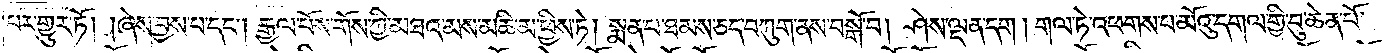པར་གྱུར་ཏོ། །ཞེས་བྱས་པ་དང༌། རྒྱལ་པོས་གོས་ཀྱི་མཐའ་མས་མཆི་མ་ཕྱིས་ཏེ། སྨན་པ་ཐམས་ཅད་བཀུག་ནས་བསྒོ་བ། ཤེས་ལྡན་དག །གལ་ཏེ་འཕགས་པ་མོའུ་དགལ་གྱི་བུ་ཆེན་པོ་
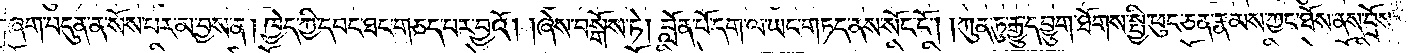ཞག་བདུན་ན་སོས་པར་མ་བྱས་ན། ཁྱེད་ཀྱི་དབང་ཐང་གཅད་པར་བྱའོ། །ཞེས་བསྒོས་ཏེ། བློན་པོ་དག་ལ་ཡང་གཏད་ནས་སོང་ངོ༌། །ཀུན་ཏུ་རྒྱུ་དབྱུག་ཐོགས་སྤྱི་ཕུང་ཅན་རྣམས་ཀྱང་ཐོས་ནས་བྲོས་
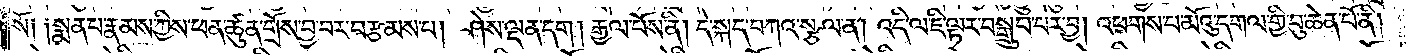སོ། །སྨན་པ་རྣམས་ཀྱིས་ཕན་ཚུན་གྲོས་བྱ་བར་བརྩམས་པ། ཤེས་ལྡན་དག། རྒྱལ་པོས་ནི། དེ་སྐད་བཀའ་སྩལ་ན། འདི་ལ་ཇི་ལྟར་བསྒྲུབ་པར་བྱ། འཕགས་པ་མོའུ་དགལ་གྱི་བུ་ཆེན་པོ་ནི།
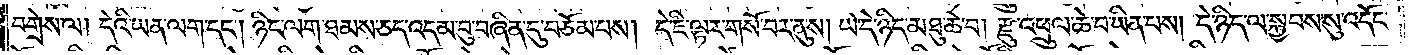བགྲེས་ལ། དེའི་ཡན་ལག་དང༌། ཉིང་ལག་ཐམས་ཅད་འདམ་བུ་བཞིན་དུ་བཅོམ་པས། དེ་ཇི་ལྟར་གསོ་བར་ནུས། ཡེ་དེ་ཉིད་མཐུ་ཆེ་བ། རྫུ་འཕྲུལ་ཆེ་བ་ཡིན་པས། དེ་ཉིད་ལ་སྐྱབས་སུ་འདོང་
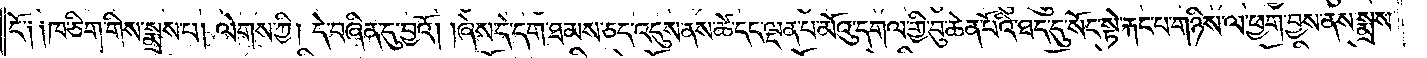ངོ༌། །ཁ་ཅིག་གིས་སྨྲས་པ། ལེགས་ཀྱི། དེ་བཞིན་དུ་བྱའོ། །ཞེས་དེ་དག་ཐམས་ཅད་འདུས་ནས་ཚེ་དང་ལྡན་པ་མོའུ་དགལ་གྱི་བུ་ཆེན་པོའི་ཐད་དུ་སོང་སྟེ་རྐང་པ་གཉིས་ལ་ཕྱག་བྱས་ནས་སྨྲས་
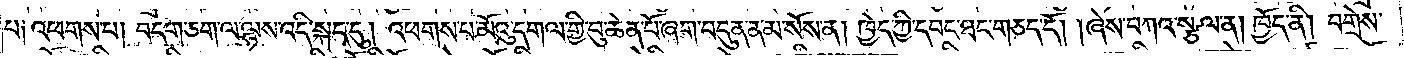པ། འཕགས་པ། བདག་ཅག་ལ་ལྷས་འདི་སྐད་དུ། འཕགས་པ་མོའུ་དགལ་གྱི་བུ་ཆེན་པོ་ཞག་བདུན་ན་མ་སོས་ན། ཁྱེད་ཀྱི་དབང་ཐང་གཅད་དོ། །ཞེས་བཀའ་སྩལ་ན། ཁྱོད་ནི། བགྲེས་
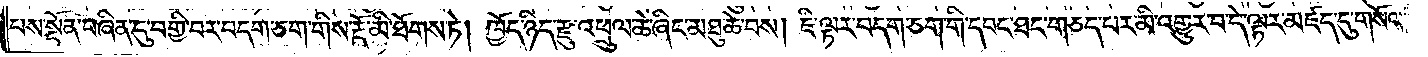པས་སྔོན་བཞིན་དུ་བགྱི་བར་བདག་ཅག་གིས་རྡོ་མི་ཐོགས་ཏེ། ཁྱོད་ཉིད་རྫུ་འཕྲུལ་ཆེ་ཞིང་མཐུ་ཆེ་བས། ཇི་ལྟར་བདག་ཅག་གི་དབང་ཐང་གཅད་པར་མི་འགྱུར་བ་དེ་ལྟར་མཛད་དུ་གསོལ།
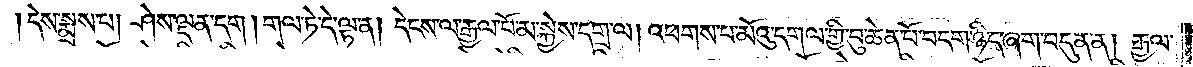དེས་སྨྲས་པ། ཤེས་ལྡན་དག །གལ་ཏེ་དེ་ལྟ་ན། དེངས་ལ་རྒྱལ་པོ་མ་སྐྱེས་དགྲ་ལ། འཕགས་པ་མོའུ་དགལ་གྱི་བུ་ཆེན་པོ་བདག་ཉིད་ཞག་བདུན་ན། རྒྱལ་
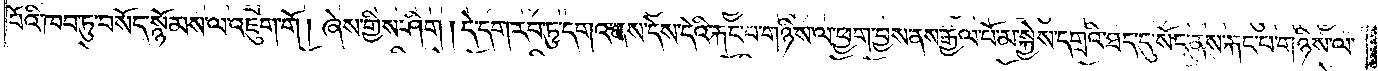པོའི་ཁབ་ཏུ་བསོད་སྙོམས་ལ་འཇུག་གོ །ཞེས་གྱིས་ཤིག །དེ་དག་རབ་ཏུ་དགའ་ནས་དེས་དེའི་རྐང་པ་གཉིས་ལ་ཕྱག་བྱས་ནས་རྒྱལ་པོ་མ་སྐྱེས་དགྲའི་ཐད་དུ་སོང་ནས་རྐང་པ་གཉིས་ལ་
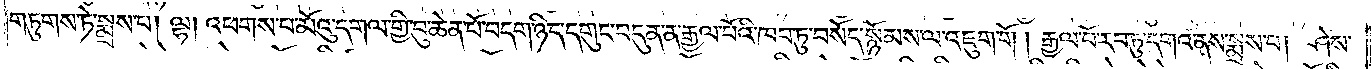གཏུགས་ཏེ་སྨྲས་པ། ལྷ། འཕགས་པ་མོའུ་དགལ་གྱི་བུ་ཆེན་པོ་བདག་ཉིད་དགུང་བདུན་ན་རྒྱལ་པོའི་ཁབ་ཏུ་བསོད་སྙོམས་ལ་འཇུག་གོ །རྒྱལ་པོ་རབ་ཏུ་དགའ་ནས་སྨྲས་པ། ཤེས་
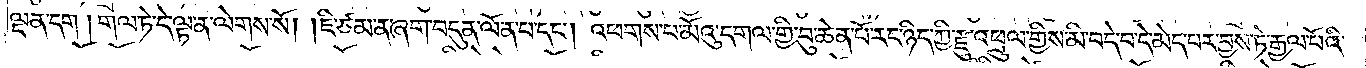ལྡན་དག །གལ་ཏེ་དེ་ལྟ་ན་ལེགས་སོ། །ཇི་ཙམ་ན་ཞག་བདུན་ལོན་པ་དང༌། འཕགས་པ་མོའུ་དགལ་གྱི་བུ་ཆེན་པོ་རང་ཉིད་ཀྱི་རྫུ་འཕྲུལ་གྱིས་མི་བདེ་བ་དེ་མེད་པར་བྱས་ཏེ་རྒྱལ་པོའི་
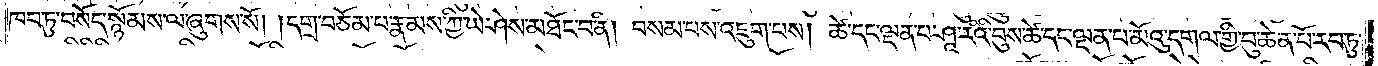ཁབ་ཏུ་བསོད་སྙོམས་ལ་ཞུགས་སོ། །དགྲ་བཅོམ་པ་རྣམས་ཀྱི་ཡེ་ཤེས་མཐོང་བ་ནི། བསམ་པས་འཇུག་པས། ཚེ་དང་ལྡན་པ་ཤཱ་རིའི་བུས་ཚེ་དང་ལྡན་པ་མོའུ་དགལ་གྱི་བུ་ཆེན་པོ་རབ་ཏུ་
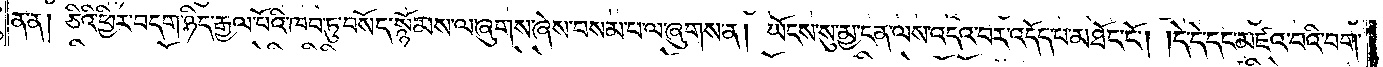ན་ན། ཅིའི་ཕྱིར་བདག་ཉིད་རྒྱལ་པོའི་ཁབ་ཏུ་བསོད་སྙོམས་ལ་ཞུགས་ཞེས་བསམ་པ་ལ་ཞུགས་ན། ཡོངས་སུ་མྱ་ངན་ལས་འདའ་བར་འདོད་པ་མཐོང་ངོ༌། །དེ་དེ་དང་མཛའ་བའི་བག་
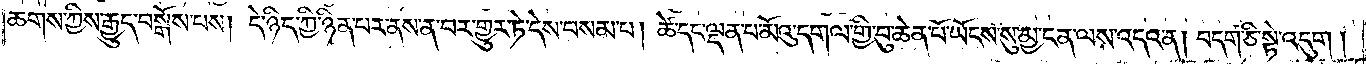ཆགས་ཀྱིས་རྒྱུད་བསྒོས་པས། དེ་ཉིད་ཀྱི་ཉིན་པར་ནས་ན་བར་གྱུར་ཏེ་དེས་བསམ་པ། ཚེ་དང་ལྡན་པ་མོའུ་དགལ་གྱི་བུ་ཆེན་པོ་ཡོངས་སུ་མྱ་ངན་ལས་འདའ་ན། བདག་ཅི་སྟེ་འདུག།
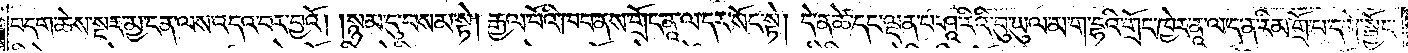བདག་ཆེས་སྔར་མྱ་ངན་ལས་འདའ་བར་བྱའོ། །སྙམ་དུ་བསམ་སྟེ། རྒྱལ་པོའི་ཁབ་ནས་གྲོང་ནཱ་ལ་དར་སོང་སྟེ། དེ་ན་ཚེ་དང་ལྡན་པ་ཤཱ་རིའི་བུ་ཡུལ་མ་ག་དྷའི་གྲོང་ཁྱེར་ནཱ་ལ་ད་ན་རིམ་གྲོ་བ་དགེ་སྦྱོང་
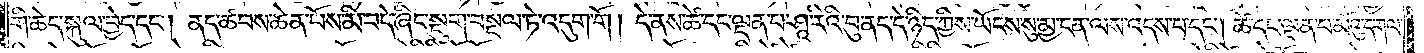གི་ཆེད་སྐུལ་བྱེད་དང༌། ནད་ཚབས་ཆེན་པོས་མི་བདེ་ཞིང་སྡུག་བསྔལ་ཏེ་འདུག་གོ །དེ་ནས་ཚེ་དང་ལྡན་པ་ཤཱ་རིའི་བུ་ནད་དེ་ཉིད་ཀྱིས་ཡོངས་སུ་མྱ་ངན་ལས་འདས་པ་དང༌། ཚེ་དང་ལྡན་པ་མོའུ་དགལ་
